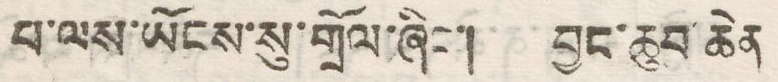པ་ལས་ཡོངས་སུ་གྲོལ་ཞིང་། བྱང་ཆུབ་ཆེན
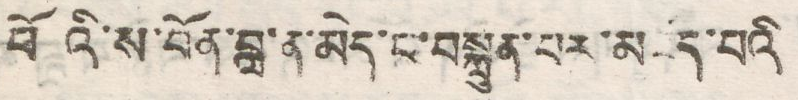ཕོའི་ས་བོན་བླ་ན་མེད་ང་བསྐྲུན་པར་མཛད་པའི་
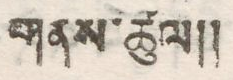གནས་ཚུལ།།
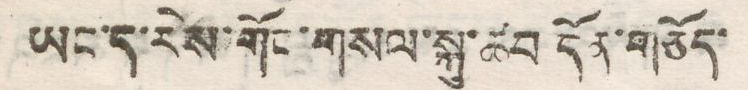ཡང་ད་རེས་གོང་གསལ་སྐུ་ཚབ དོན་གཅོད་
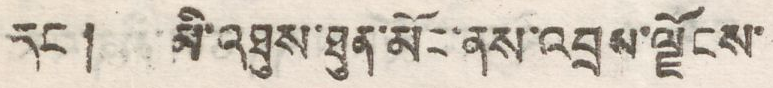དང ། མི་འཐུས་ཐུན་མོང་ནས་འབྲས་ལྗོངས་
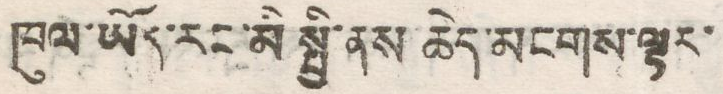ཁུལ་ཡོད་རང་མི སྤྱི་ནས་ཆེད་མངགས་ལྟར་
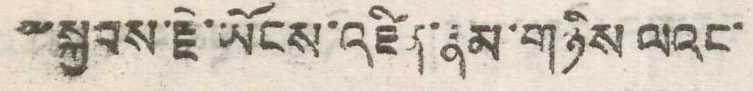༸སྐྱབས་རྗེ་ཡོངས་འཛིན་རྣམ་གཉིས ལའང་
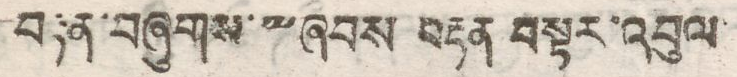བརྟན་བཞུགས་༸ཞབས བརྟན བསྟར་འབུལ་
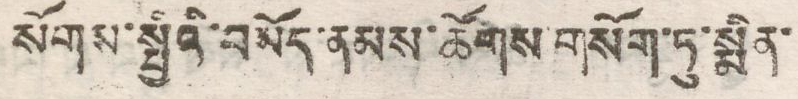སོགས་སྤྱིའི་བམོད་ནམས་ཚོགས་གསོག་ཏུ་སྨིན་
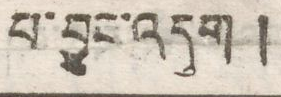པ་བྱུང་འདུག །
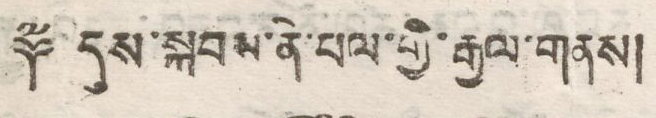༈་དུས་སྐབས་ནེ་པལ་གྱི་རྒྱལ་གནས།
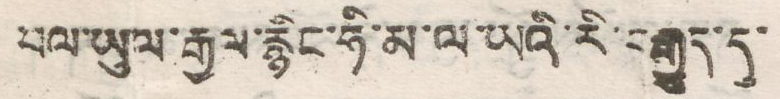བལ་ཡུལ་རྒྱལ་རྙིང་ཧི་མ་ལ་ཡའི་རི་བརྒྱུད་དུ་
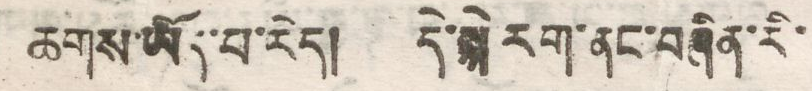ཆགས་ཡོད་པ་རེད། དེ་སྐེ རག་ནང་བཞིན་རི་
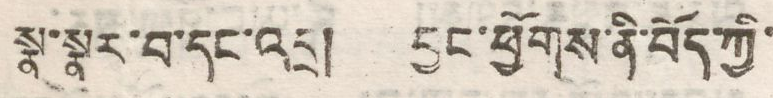སྣ་སྣུར་བ་དང་འདྲ། བྱང་ཕྱོགས་ནི་བོད་ཀྱི་
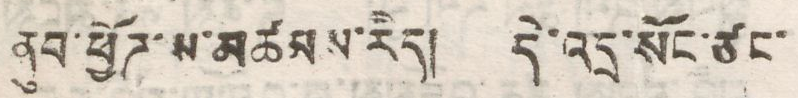ནུབ་ཕྱོཊ་ས་མཚམས་རེད། དེ་འདྲ་སོང་ཙང་
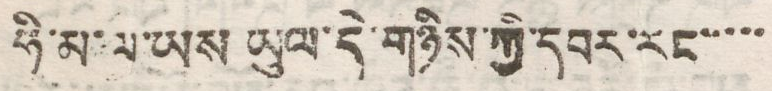ཧི་མ་ལ་ཡས ཡུལ་དེ་གཉིས་ཀྱི་དབར་རང་་་་་
